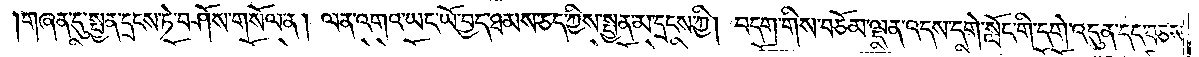གཞན་དུ་སྤྱན་དྲངས་ཏེ་བཤོས་གསོལ་ན། ལན་འགའ་ཡང་ཡོ་བྱད་ཐམས་ཅད་ཀྱིས་སྤྱན་མ་དྲངས་ཀྱི། བདག་གིས་བཅོམ་ལྡན་འདས་དགེ་སློང་གི་དགེ་འདུན་དང་བཅས་
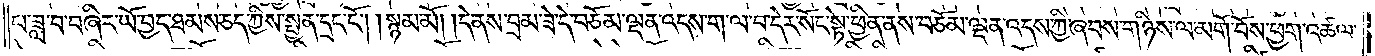པ་ཟླ་བ་བཞིར་ཡོ་བྱད་ཐམས་ཅད་ཀྱིས་སྤྱན་དྲང་ངོ༌། །སྙམ་མོ། །དེ་ནས་བྲམ་ཟེ་དེ་བཅོམ་ལྡན་འདས་ག་ལ་བ་དེར་སོང་སྟེ་ཕྱིན་ནས་བཅོམ་ལྡན་འདས་ཀྱི་ཞབས་གཉིས་ལ་མགོ་བོས་ཕྱག་འཚལ་
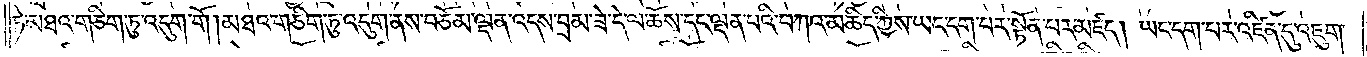ཏེ་མཐའ་གཅིག་ཏུ་འདུག་གོ །མཐའ་གཅིག་ཏུ་འདུག་ནས་བཅོམ་ལྡན་འདས་བྲམ་ཟེ་དེ་ལ་ཆོས་དང་ལྡན་པའི་བཀའ་མཆིད་ཀྱིས་ཡང་དག་པར་སྟོན་པར་མཛད། ཡང་དག་པར་འཛིན་དུ་འཇུག་
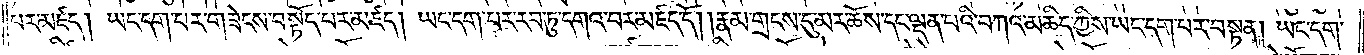པར་མཛད། ཡང་དག་པར་གཟེངས་བསྟོད་པར་མཛད། ཡང་དག་པར་རབ་ཏུ་དགའ་བར་མཛད་དོ། །རྣམ་གྲངས་དུ་མར་ཆོས་དང་ལྡན་པའི་བཀའ་མཆིད་ཀྱིས་ཡང་དག་པར་བསྟན། ཡང་དག་
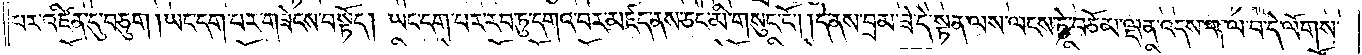པར་འཛིན་དུ་བཅུག །ཡང་དག་པར་གཟེངས་བསྟོད། ཡང་དག་པར་རབ་ཏུ་དགའ་བར་མཛད་ནས་ཅང་མི་གསུང་ངོ༌། །དེ་ནས་བྲམ་ཟེ་དེ་སྟན་ལས་ལངས་ཏེ་བཅོམ་ལྡན་འདས་ག་ལ་བ་དེ་ལོགས་
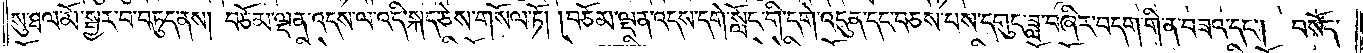སུ་ཐལ་མོ་སྦྱར་བ་བཏུད་ནས། བཅོམ་ལྡན་འདས་ལ་འདི་སྐད་ཅེས་གསོལ་ཏོ། །བཅོམ་ལྡན་འདས་དགེ་སློང་གི་དགེ་འདུན་དང་བཅས་པས་དགུང་ཟླ་བཞིར་བདག་གི་ན་བཟའ་དང༌། བསོད་
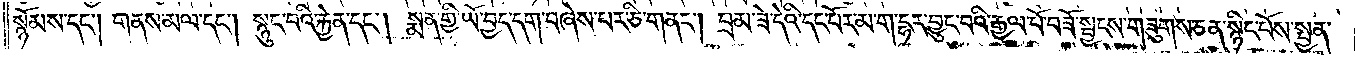སྙོམས་དང༌། གནས་མལ་དང༌། སྙུང་བའི་རྐྱེན་དང༌། སྨན་གྱི་ཡོ་བྱད་དག་བཞེས་པར་ཅི་གནང༌། བྲམ་ཟེ་དེའི་དང་པོར་མ་ག་དྷར་བྱུང་བའི་རྒྱལ་པོ་བཟོ་སྦྱངས་གཟུགས་ཅན་སྙིང་པོས་སྤྱན་
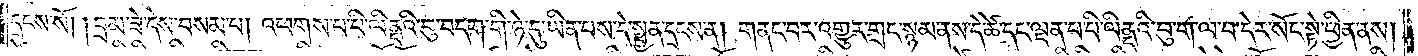དྲངས་སོ། །བྲམ་ཟེ་དེས་བསམ་པ། འཕགས་པ་པི་ལིནྡའི་བུ་བདག་གི་ཉེ་དུ་ཡིན་པས་དེ་སྤྱན་དྲངས་ན། གནང་བར་འགྱུར་གྲང་སྙམ་ནས་དེ་ཚེ་དང་ལྡན་པ་པི་ལིནདའི་བུ་ག་ལ་བ་དེར་སོང་སྟེ་ཕྱིན་ནས།
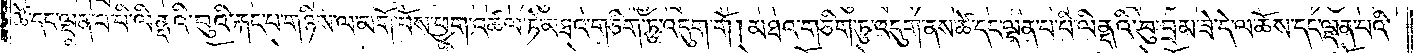ཚེ་དང་ལྡན་པ་པི་ལིནྡའི་བུའི་རྐང་པ་གཉིས་ལ་མགོ་བོས་ཕྱག་འཚལ་ཏེ་མཐའ་གཅིག་ཏུ་འདུག་གོ། མཐའ་གཅིག་ཏུ་འདུག་ནས་ཚེ་དང་ལྡན་པ་པི་ལིནྡའི་བུ་བྲམ་ཟེ་དེ་ལ་ཆོས་དང་ལྡན་པའི་
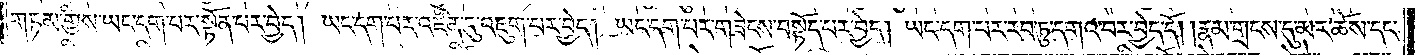གཏམ་གྱིས་ཡང་དག་པར་སྟོན་པར་བྱེད། ཡང་དག་པར་འཛིན་དུ་འཇུག་པར་བྱེད། ཡང་དག་པར་གཟེངས་བསྟོད་པར་བྱེད། ཡང་དག་པར་རབ་ཏུ་དགའ་བར་བྱེད་དོ། །རྣམ་གྲངས་དུ་མར་ཆོས་དང་
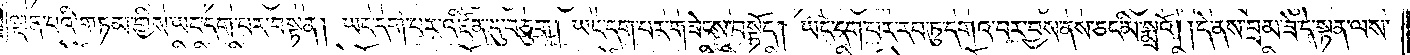ལྡན་པའི་གཏམ་གྱིས་ཡང་དག་པར་བསྟན། ཡང་དག་པར་འཛིན་དུ་བཅུག། ཡང་དག་པར་གཟེངས་བསྟོད། ཡང་དག་པར་རབ་ཏུ་དགའ་བར་བྱས་ནས་ཅང་མི་སྨྲའོ། །དེ་ནས་བྲམ་ཟེ་དེ་སྟན་ལས་
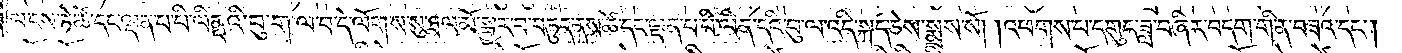ལངས་ཏེ་ཚེ་དང་ལྡན་པ་པི་ལིནྡའི་བུ་ག་ལ་བ་དེ་ལོགས་སུ་ཐལ་མོ་སྦྱར་བ་བཏུད་ནས་ཚེ་དང་ལྡན་པ་པི་ལིན་དའི་བུ་ལ་འདི་སྐད་ཅེས་སྨྲས་སོ། །འཕགས་པ་དགུང་ཟླ་བཞིར་བདག་གི་ན་བཟའ་དང༌།
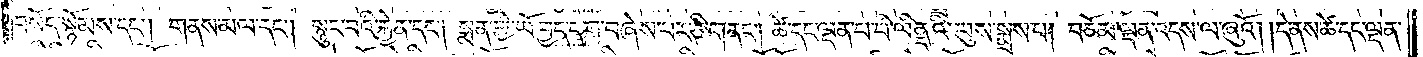བསོད་སྙོམས་དང༌། གནས་མལ་དང༌། སྙུང་བའི་རྐྱེན་དང༌། སྨན་གྱི་ཡོ་བྱད་དག་བཞེས་པར་ཅི་གནང༌། ཚེ་དང་ལྡན་པ་པི་ལིནདའི་བུས་སྨྲས་པ། བཅོམ་ལྡན་འདས་ལ་ཞུའོ། །དེ་ནས་ཚེ་དང་ལྡན་
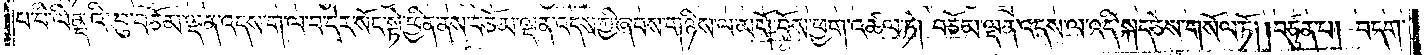པ་པི་ལིནྡའི་བུ་བཅོམ་ལྡན་འདས་ག་ལ་བ་དེར་སོང་སྟེ་ཕྱིན་ནས་བཅོམ་ལྡན་འདས་ཀྱི་ཞབས་གཉིས་ལ་མགོ་བོས་ཕྱག་འཚལ་ཏེ། བཅོམ་ལྡན་འདས་ལ་འདི་སྐད་ཅེས་གསོལ་ཏོ། །བཙུན་པ། བདག་
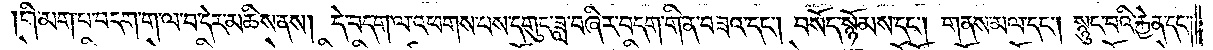གི་མག་པ་བདག་ག་ལ་བ་དེར་མཆིས་ནས། དེ་བདག་ལ་འཕགས་པས་དགུང་ཟླ་བཞིར་བདག་གི་ན་བཟའ་དང༌། བསོད་སྙོམས་དང༌། གནས་མལ་དང༌། སྙུང་བའི་རྐྱེན་དང་།
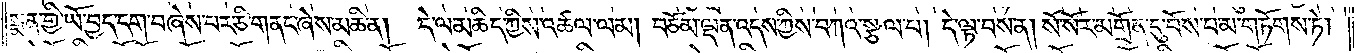སྨན་གྱི་ཡོ་བྱད་དག་བཞེས་པར་ཅི་གནང་ཞེས་མཆི་ན། དེ་ལ་མཆིད་ཀྱིས་འཚལ་ལམ། བཅོམ་ལྡན་འདས་ཀྱིས་བཀའ་སྩལ་པ། དེ་ལྟ་བས་ན། སོ་སོར་མགྲོན་དུ་བོས་པ་མ་གཏོགས་ཏེ།
